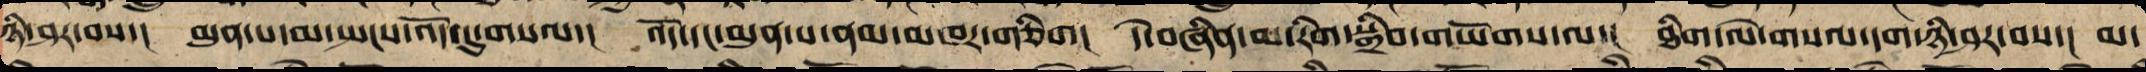ཉི་ཤར་བས་། མུན་པ་མ་སྤངས་འོད་དུ་གསལ་། འོད་དང་མུན་པ་ནམ་མཁར་གཅིག། དེ་བཞིན་མ་རིག་སྒྲིབ་གཡོགས་ལ་། ཐིག་ལེ་གསལ་དག་ཉི་ཤར་བས་། མ་
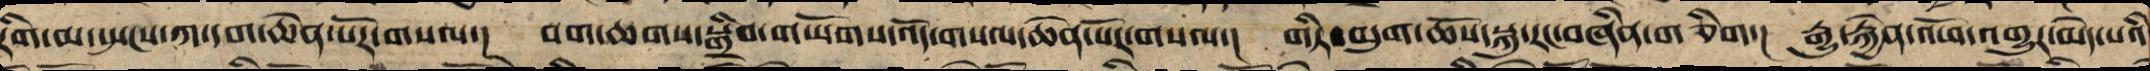རིག་མ་སྤངས་ཀ་དག་ཆེན་པོར་གསལ་། བག་ཆགས་སྒྲིབ་གཡོགས་འོད་གསལ་ཆེན་པོར་གསལ་། གཏི་མུག་ཆོས་སྐུ་རང་བཞིན་གཅིག། རྒྱུ་རྐྱེན་འཕོ་འགྱུར་མེད་པའི
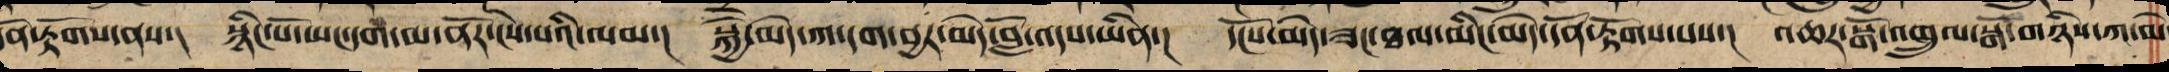དོན་རྟོགས་ནས་། སྙིང་པོ་ཡང་དག་མ་ནོར་ངེས་པའི་ལམ་། སྐྱེ་མེད་ཀ་དག་བྱར་མེད་བློ་འདས་ཡིན་། དངོས་མེད་ཟང་ཐལ་མིང་མེད་དོན་རྟོགས་པས་། འཆར་སྒོ་འགྲུལ་སྒོ་གཉིས་ཀ་མེ
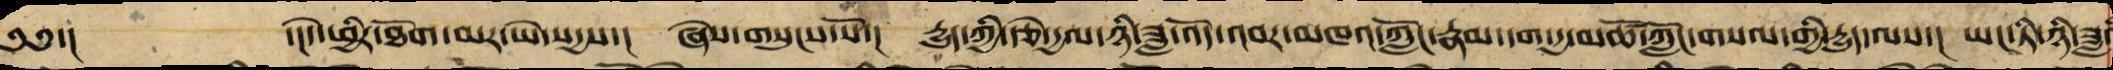༄༅་། ་།དེ་ཕྱིར་ཐོག་མར་ཡེ་སདྱས་། ཞེས་གསུངས་སོ་། རྒྱུད་ཀྱི་རྩེ་རྒྱལ་ཉི་ཟླ་འོད་འབར་མཁའ་ཀློང་རྣམ་དག་རྒྱ་མཚོ་ཀློང་གསལ་གྱི་རྒྱུད་ལས་། ཡང་ཏི་ཉི་ཟླ
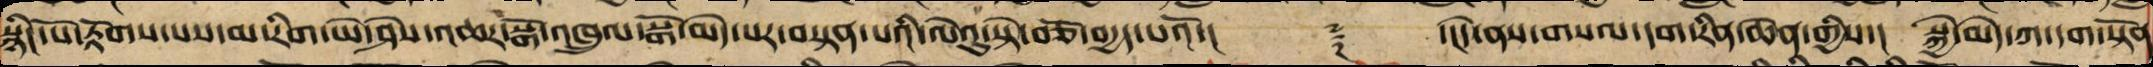སྙིང་པོ་རྟོགས་པས་མ་རིག་ཡེ་ཤེས་འཆར་སྒོ་འཁྲུལ་སྒོ་མེད་པར་བསྟན་པའི་ལེའུ་སྟེ་བཅོ་བརྒྱད་པའོ།་། ༈ ་།།དེ་ནས་གསལ་དག་རིན་ཆེན་གྱིས་། སྐྱེ་མེད་ཀ་དག་སྟོན
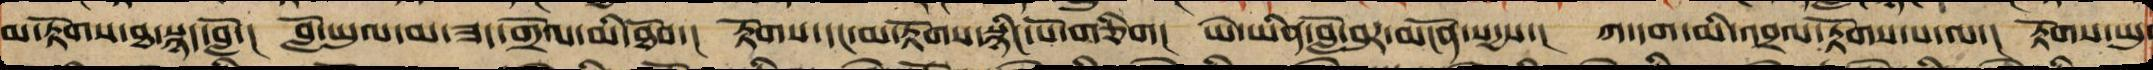མ་རྟོགས་ཐ་སྙད་བློ་། བློ་ཡུལ་མ་ཟད་གྲོལ་མི་ཐོབ་། རྟོགས་དང་མ་རྟོགས་སྙིང་པོ་གཅིག། ཡེ་ཡིན་གློ་བུར་མངོན་སངས་རྒྱས་། ཀ་དག་མི་འབྲལ་རྟོགས་པ་ལ་། རྟོགས་ཡུ
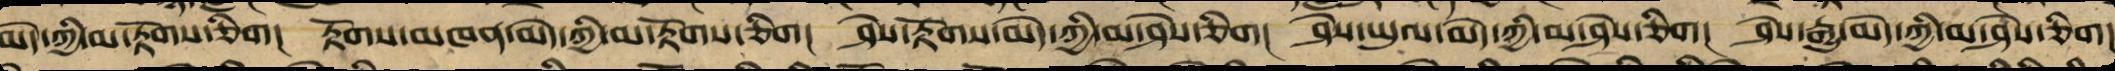མེད་ཀྱིས་མ་རྟོགས་ཅིག། རྟོགས་མཁན་མེད་ཀྱིས་མ་རྟོག་ཅིག། ཤེས་རྟོགས་མེད་ཀྱིས་མ་ཤེས་ཤིག། ཤེས་ཡུལ་མེད་ཀྱིས་མ་ཤེས་ཤིག། ཤེས་རྒྱུ་མེད་ཀྱིས་མ་ཤེས་ཅིག།
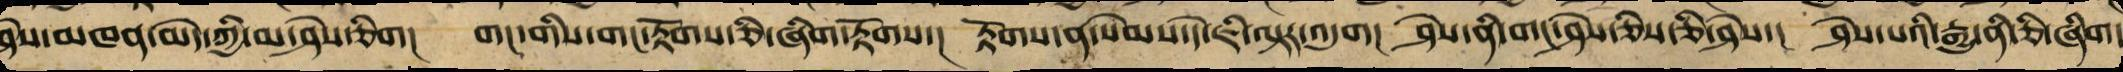ཤེས་མཁན་མེད་ཀྱིས་མ་ཤེས་ཅིག། གང་གིས་གང་རྟོགས་ཅི་ཞིག་རྟོགས་། རྟོགས་ན་སེམས་དེ་ཇི་ལྟར་འདུག། ཤེས་ན་གང་ཤེས་ཅིས་ཅི་ཤེས་། ཤེས་པའི་རྒྱུ་ནི་ཅི་ཞིག་
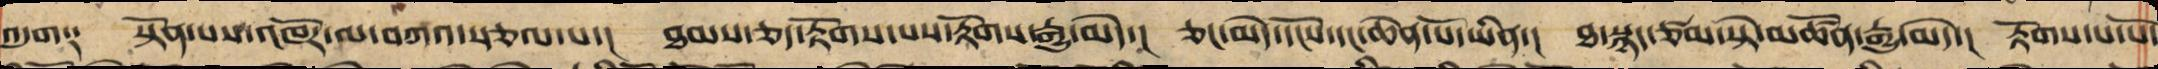འདུག༑ སྟོན་པས་འཁོར་ལ་བཀའ་སྩལ་པ་། ཐམས་ཅད་རྟོགས་པས་རྟོགས་རྒྱུ་མེད་། ཅང་མེད་དངོངས་དང་ཆེན་པོ་ཡིན་། ཐ་སྙད་ཙམ་སྟེ་མཚོན་རྒྱུ་མེད་། རྟོགས་པ་པོ་
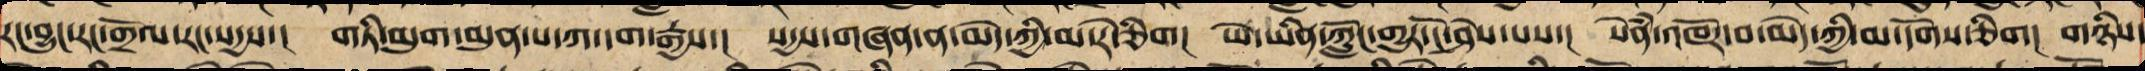རང་བྱུང་རང་གྲོལ་རང་སདྱས་། གཏི་མུག་མུན་པ་ཀ་དག་རྒྱས་། སདྱས་གཞན་ན་མེད་ཀྱིས་མ་རེ་ཅིག། ཡེ་ཡིན་ཀློང་གྱུར་ངོ་ཤེས་པས་། སེཾན་འཁོར་བ་མེད་ཀྱིས་མ་དོགས་ཅིག། གཉིས་
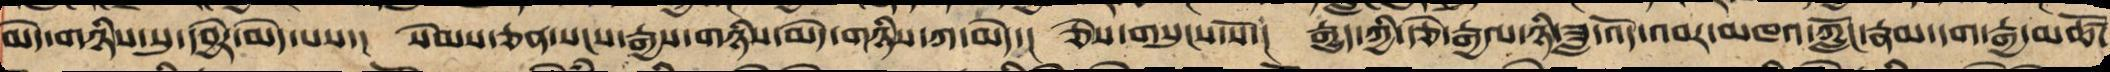མེད་གཉིས་སུ་དབྱེར་མེད་པས་། སེམས་ཅན་སངས་རྒྱས་གཉིས་མེད་གཉིས་ཀ་མེད་། ཅེས་གསུངས་སོ་། རྒྱུད་ཀྱི་རྩེ་རྒྱལ་ཉི་ཟླ་འོད་འབར་མཁའ་ཀློང་རྣམ་དག་རྒྱ་མཚོ་
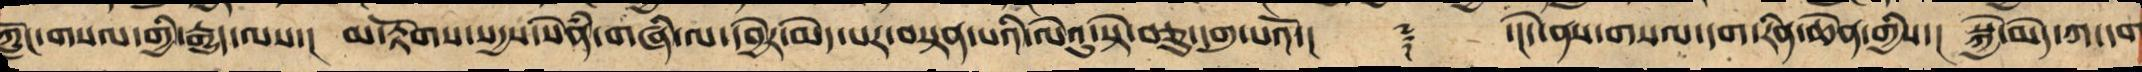ཀློང་གསལ་གྱི་རྒྱུད་ལས་། མ་རྟོགས་སདྱས་སེཾན་གཞི་ལ་དབྱེར་མེད་པར་བསྟན་པའི་ལེའུ་སྟེ་བཅུ་དགུ་པའོ་།། ༈ ་།།དེ་ནས་གསལ་དག་རིན་ཆེན་གྱིས་། སྐྱེ་མེད་ཀ་དག
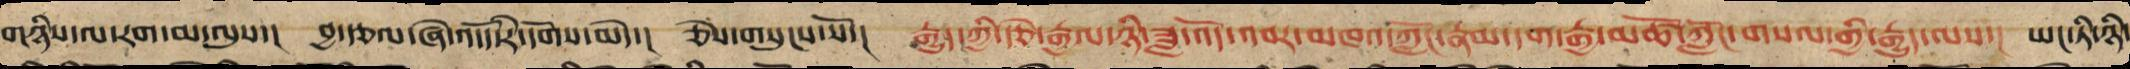གཉིས་ལ་རག་མ་ལུས་། བྱ་རྩོལ་ཞེ་འདོད་རེ་དོགས་མེད་། ཅེས་གསུངས་སོ་། རྒྱུད་ཀྱི་རྩེ་རྒྱལ་ཉི་ཟླ་འོད་འབར་མཁའ་ཀློང་རྣམ་དག་རྒྱ་མཚོ་ཀློང་གསལ་གྱི་རྒྱུད་ལས་། ཡང་ཏི་ཉི་
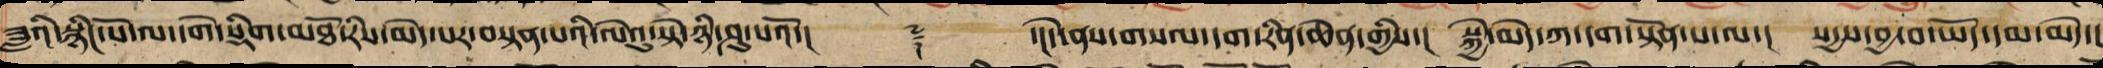ཟླའི་སྙིང་པོ་ལ་དགེ་སྡིག་མཐོ་རིས་མེད་པར་བསྟན་པའི་ལེའུ་སྟེ་ཉི་ཤུ་པའོ་།། ༈ ་།།དེ་ནས་གསལ་དག་རིན་ཆེན་གྱིས་། སྐྱེ་མེད་ཀ་དག་སྟོན་པ་ལ་། སདྱས་བྱ་བ་ཡོད་དམ་མེད་།
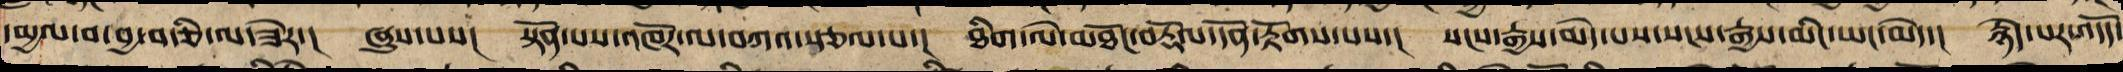དམྱལ་བ་བྱ་བ་ཅི་ལ་ཟེར་། ཞུས་པས། སྟོན་པས་འཁོར་ལ་བཀའ་སྩལ་པ་། ཐིག་ལེ་མཐོང་བརྟོལ་དོན་རྟོགས་པས་། སངས་རྒྱས་མེད་པས་སངས་རྒྱས་མིང་ཡང་མེད་། རྙེད་པར་འདོད་
